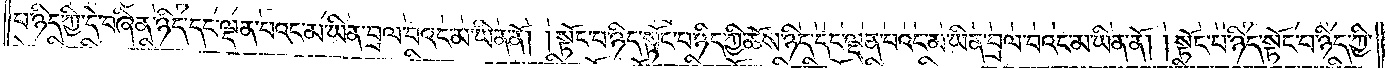པ་ཉིད་ཀྱི་དེ་བཞིན་ཉིད་དང་ལྡན་པའང་མ་ཡིན་བྲལ་བའང་མ་ཡིན་ནོ། སྟོང་པ་ཉིད་སྟོང་པ་ཉིད་ཀྱི་ཆོས་ཉིད་དང་ལྡན་པའང་མ་ཡིན་བྲལ་བའང་མ་ཡིན་ནོ། །སྟོང་པ་ཉིད་སྟོང་པ་ཉིད་ཀྱི་
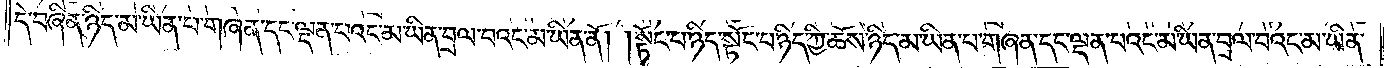དེ་བཞིན་ཉིད་མ་ཡིན་པ་གཞན་དང་ལྡན་པའང་མ་ཡིན་བྲལ་བའང་མ་ཡིན་ནོ། །སྟོང་པ་ཉིད་སྟོང་པ་ཉིད་ཀྱི་ཆོས་ཉིད་མ་ཡིན་པ་གཞན་དང་ལྡན་པའང་མ་ཡིན་བྲལ་བའང་མ་ཡིན་
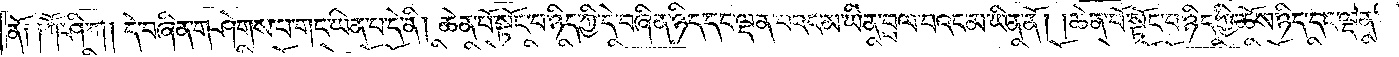ནོ༑ ༑ཀཽ་ཤི་ཀ། དེ་བཞིན་གཤེགས་པ་གང་ཡིན་པ་དེ་ནི། ཆེན་པོ་སྟོང་པ་ཉིད་ཀྱི་དེ་བཞིན་ཉིད་དང་ལྡན་པའང་མ་ཡིན་བྲལ་བའང་མ་ཡིན་ནོ། །ཆེན་པོ་སྟོང་པ་ཉིད་ཀྱི་ཆོས་ཉིད་དང་ལྡན་
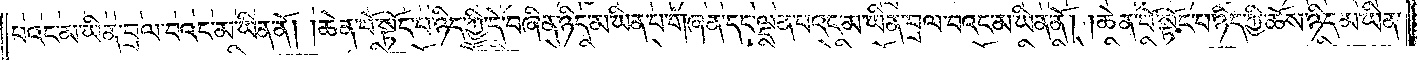པའང་མ་ཡིན་བྲལ་བའང་མ་ཡིན་ནོ། །ཆེན་པོ་སྟོང་པ་ཉིད་ཀྱི་དེ་བཞིན་ཉིད་མ་ཡིན་པ་གཞན་དང་ལྡན་པའང་མ་ཡིན་བྲལ་བའང་མ་ཡིན་ནོ། །ཆེན་པོ་སྟོང་པ་ཉིད་ཀྱི་ཆོས་ཉིད་མ་ཡིན་
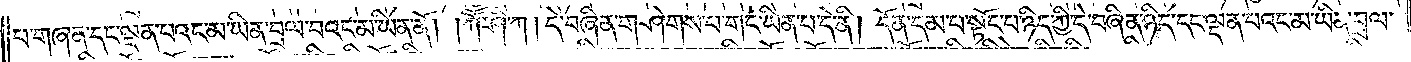པ་གཞན་དང་ལྡན་པའང་མ་ཡིན་བྲལ་བའང་མ་ཡིན་ནོ། །ཀཽ་ཤི་ཀ། དེ་བཞིན་གཤེགས་པ་གང་ཡིན་པ་དེ་ནི། དོན་དམ་པ་སྟོང་པ་ཉིད་ཀྱི་དེ་བཞིན་ཉིད་དང་ལྡན་པའང་མ་ཡིན་བྲལ་
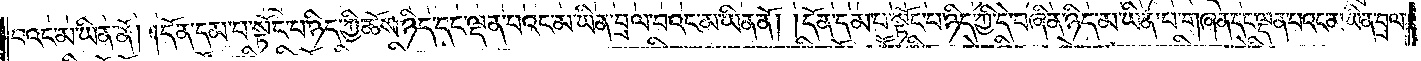བའང་མ་ཡིན་ནོ། །དོན་དམ་པ་སྟོང་པ་ཉིད་ཀྱི་ཆོས་ཉིད་དང་ལྡན་པའང་མ་ཡིན་བྲལ་བའང་མ་ཡིན་ནོ། །དོན་དམ་པ་སྟོང་པ་ཉིད་ཀྱི་དེ་བཞིན་ཉིད་མ་ཡིན་པ་གཞན་དང་ལྡན་པའང་མ་ཡིན་བྲལ་
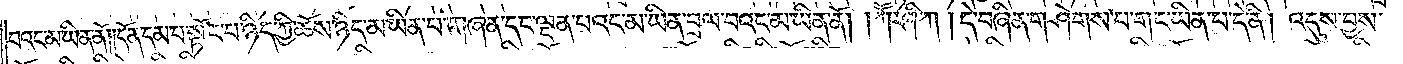བའང་མ་ཡིན་ནོ། །དོན་དམ་པ་སྟོང་པ་ཉིད་ཀྱི་ཆོས་ཉིད་མ་ཡིན་པ་གཞན་དང་ལྡན་བའང་མ་ཡིན་བྲལ་བའང་མ་ཡིན་ནོ། །ཀཽ་ཤི་ཀ །དེ་བཞིན་གཤེགས་པ་གང་ཡིན་པ་དེ་ནི། འདུས་བྱས་
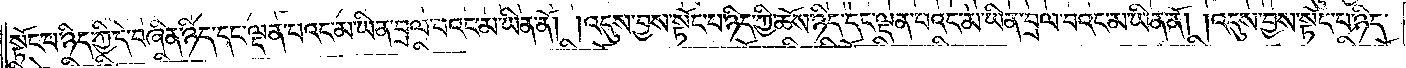སྟོང་པ་ཉིད་ཀྱི་དེ་བཞིན་ཉིད་དང་ལྡན་པའང་མ་ཡིན་བྲལ་བའང་མ་ཡིན་ནོ། །འདུས་བྱས་སྟོང་པ་ཉིད་ཀྱི་ཆོས་ཉིད་དང་ལྡན་པའང་མ་ཡིན་བྲལ་བའང་མ་ཡིན་ནོ། །འདུས་བྱས་སྟོང་པ་ཉིད་
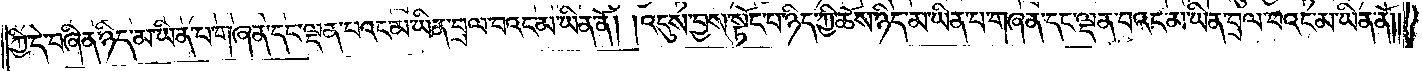ཀྱི་དེ་བཞིན་ཉིད་མ་ཡིན་པ་གཞན་དང་ལྡན་པའང་མ་ཡིན་བྲལ་བའང་མ་ཡིན་ནོ། །འདུས་བྱས་སྟོང་པ་ཉིད་ཀྱི་ཆོས་ཉིད་མ་ཡིན་པ་གཞན་དང་ལྡན་པའང་མ་ཡིན་བྲལ་བའང་མ་ཡིན་ནོ༎
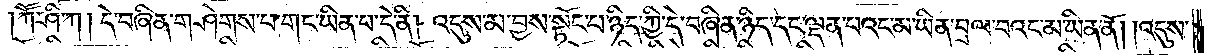ཀཽ་ཤི་ཀ། དེ་བཞིན་གཤེགས་པ་གང་ཡིན་པ་དེ་ནི། འདུས་མ་བྱས་སྟོང་པ་ཉིད་ཀྱི་དེ་བཞིན་ཉིད་དང་ལྡན་པའང་མ་ཡིན་བྲལ་བའང་མ་ཡིན་ནོ། །འདུས་
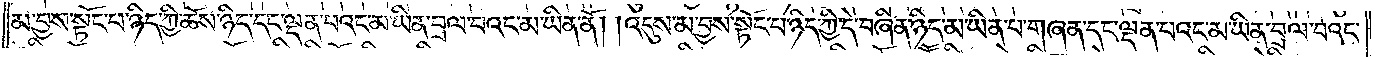མ་བྱས་སྟོང་པ་ཉིད་ཀྱི་ཆོས་ཉིད་དང་ལྡན་པའང་མ་ཡིན་བྲལ་བའང་མ་ཡིན་ནོ། །འདུས་མ་བྱས་སྟོང་པ་ཉིད་ཀྱི་དེ་བཞིན་ཉིད་མ་ཡིན་པ་གཞན་དང་ལྡན་པའང་མ་ཡིན་བྲལ་བའང་
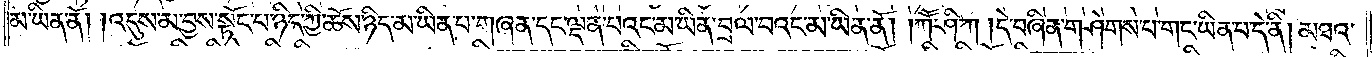མ་ཡིན་ནོ། །འདུས་མ་བྱས་སྟོང་པ་ཉིད་ཀྱི་ཆོས་ཉིད་མ་ཡིན་པ་གཞན་དང་ལྡན་པའང་མ་ཡིན་བྲལ་པའང་མ་ཡིན་ནོ། །ཀཽ་ཤི་ཀ །དེ་བཞིན་གཤེགས་པ་གང་ཡིན་པ་དེ་ནི། མཐའ་
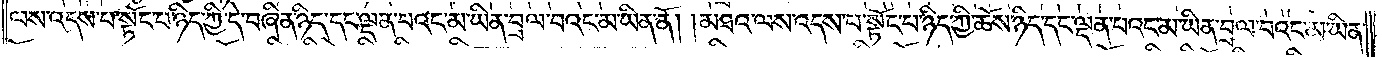ལས་འདས་པ་སྟོང་པ་ཉིད་ཀྱི་དེ་བཞིན་ཉིད་དང་ལྡན་པའང་མ་ཡིན་བྲལ་བའང་མ་ཡིན་ནོ། །མཐའ་ལས་འདས་པ་སྟོང་པ་ཉིད་ཀྱི་ཆོས་ཉིད་དང་ལྡན་པའང་མ་ཡིན་བྲལ་བའང་མ་ཡིན་
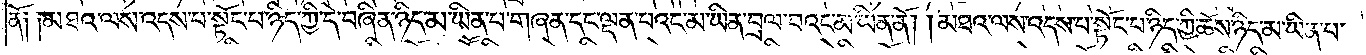ནོ༑ ༑མཐའ་ལས་འདས་པ་སྟོང་པ་ཉིད་ཀྱི་དེ་བཞིན་ཉིད་མ་ཡིན་པ་གཞན་དང་ལྡན་པའང་མ་ཡིན་བྲལ་བའང་མ་ཡིན་ནོ། །མཐའ་ལས་འདས་པ་སྟོང་པ་ཉིད་ཀྱི་ཆོས་ཉིད་མ་ཡིན་པ་
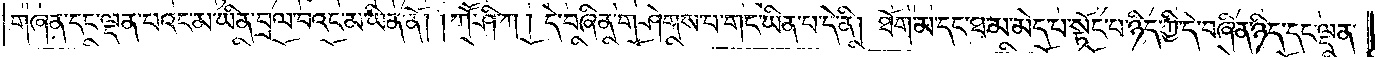གཞན་དང་ལྡན་བའང་མ་ཡིན་བྲལ་བའང་མ་ཡིན་ནོ། །ཀཽ་ཤི་ཀ། དེ་བཞིན་གཤེགས་པ་གང་ཡིན་པ་དེ་ནི། ཐོག་མ་དང་ཐ་མ་པ་སྟོང་པ་ཉིད་ཀྱི་དེ་བཞིན་ཉིད་དང་ལྡན་
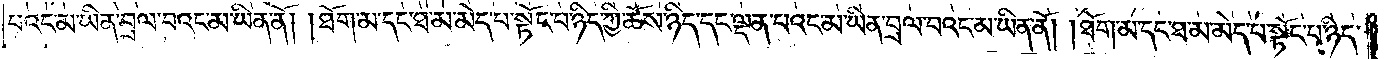པའང་མ་ཡིན་བྲལ་བའང་མ་ཡིན་ནོ། །ཐོག་མ་དང་ཐ་མ་མེད་པ་སྟོང་པ་ཉིད་ཀྱི་ཆོས་ཉིད་དང་ལྡན་པའང་མ་ཡིན་བྲལ་བའང་མ་ཡིན་ནོ། །ཐོག་མ་དང་ཐ་མ་མེད་པ་སྟོང་པ་ཉིད་
